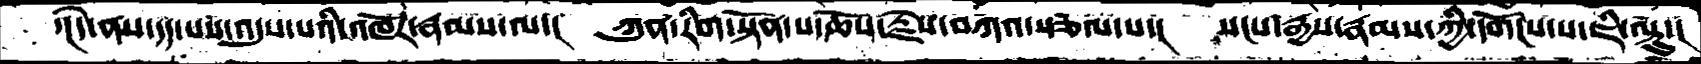་།དེ་ནས་དད་པས་འདུས་པའི་འཁོར་རྣམས་ལ་།  ཀུན་རིག་སྟོན་པ་ཆོས་རྗེས་བཀའ་སྩལ་པ་།  སངས་རྒྱས་རྣམས་ཀྱི་དགོངས་པ་ཇི་ལྟུ་།
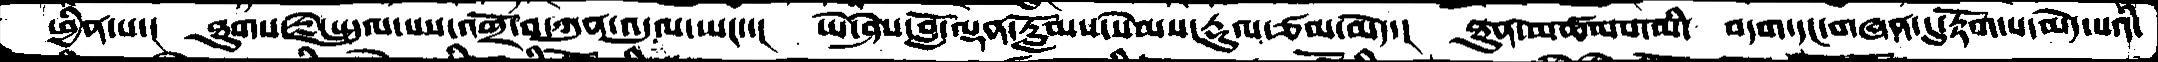ཕྱིན་པ་།  ཐུགས་རྗེ་སྤྲུལ་པས་འགྲོ་བ་ཀུན་འདུལ་ཡང་་།  ཡེ་ཤེས་བློ་ལྡན་རློམས་སེམས་རྡུལ་ཙམ་མེད་།  ཐུན་མཚམས་མི་  བདག་དང་གཞན་དུ་རྟོག་པ་མེད་པའི་
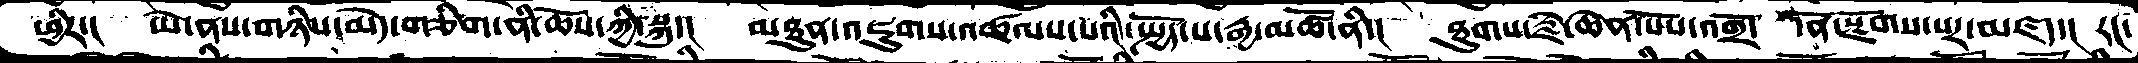ཕྱིར་།  ཡེ་ནས་གཉིས་མེད་གཅིག་ནི་ཆོས་ཀྱི་སྐུ་།  མཐུན་འཇུགས་འཚལས་པའི་སྤྱོད་པ་རྒྱ་མཚོ་ནི་།  ཐུགས་རྗེ་ཆེན་པོས་འགྲོ་ དོན་སྫོགས་པར་མཛད་།  རང་
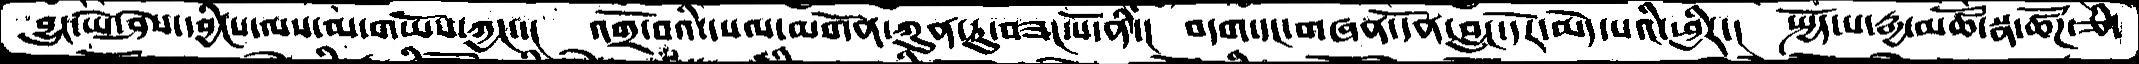བྱུང་ཡེ་ཤེས་དབྱིངས་ལས་མ་གཡོས་ཀྱང་་།  འགྲོ་བའི་དཔལ་མགོན་ཀུན་ཏུ་བཟང་པོ་ནི་།  བདག་དང་གཞན་དོན་བླང་དོར་མེད་པའི་ཕྱིར་།  སྤྱོད་པ་རྒྱ་མཚོ་སྣ་ཚོཌ་ཅི་
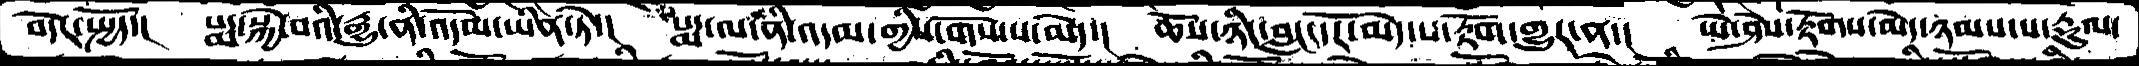བདེར་སྤྱོད་།  པདྨ་སྐྱེ་བའི་རྒྱུ་ནི་འདོམ་ཡིན་ཏེ་།  པདྨ་ལ་ནི་འདམ་གྱིས་གོས་པ་མེད་།  ཆོས་ཉིད་བླང་དོར་མེད་པ་རྟོག་གྱུར་ན་།   ཡེ་ཤེས་རྟོགས་མེད་ཉམས་པ་རྡུལ་
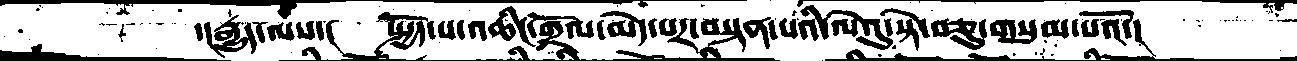་།རྒྱུད་ལས་།   སྤྱོད་པ་འཆིང་གྲོལ་མེད་པར་བསྟན་པའི་ལེའུ་སྟེ་བཅུ་གསུམ་པའོ་།
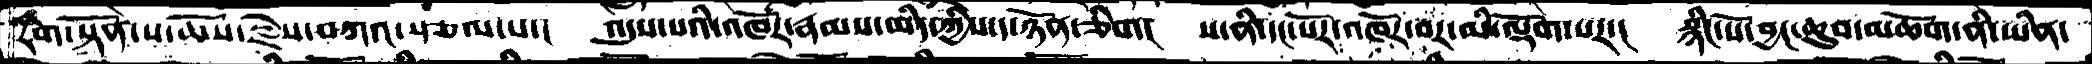རིག་སྟོན་པ་ཆོས་རྗེས་བཀའ་སྩལ་པ་།  འདུས་པའི་འཁོར་རྣམས་ཡིད་ཀྱིས་ད་ཉོན་ཅིག།  ས་ནི་དང་པོར་འཁོར་བར་མི་ལྡོག་པར་།  སྙིང་པོ་བྱང་ཆུབ་མཆོག་ནི་ཡིན་
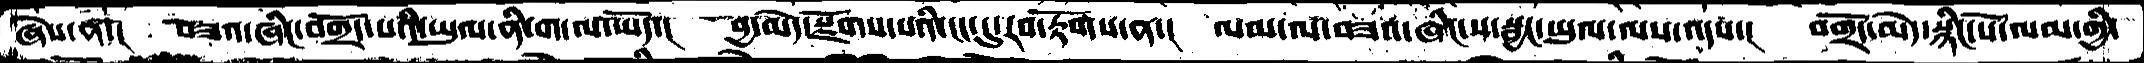ཞེས་ནི་།  བཟའ་ཞིང་འགྲོད་པའི་ཡུལ་ནི་ག་ལ་ཡོད་།  བྱ་མེད་སྫོགས་པའི་ངང་དུ་རབ་རྟོགས་ན་།  ལམ་ལ་བཟའ་ཞིང་ས་སྦྱང་ཡུལ་ལས་འདས་།  བགྲོད་མེད་སྙིང་པོ་ལམ་གྱི་
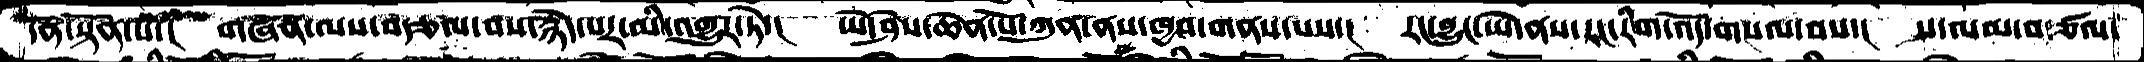དོན་སྟོན་པ་།  གཞན་ལས་བརྩལ་བས་རྙེད་པར་མི་འགྱུར་ཏེ་།  ཡེ་ཤེས་ཆེན་པོ་ཀུན་ནས་ཁྱབ་གནས་པས་།  རང་བྱུང་ཡེ་ནས་རང་རིག་འོད་གསལ་བས་།  ས་ལམ་བརྩལ་
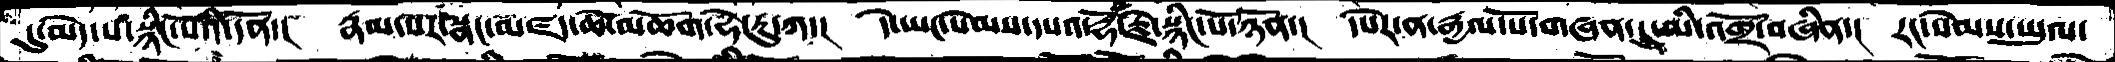དུ་མེད་པ་སྙིང་པོའི་དོན་།  རྣམ་པར་སྣང་མཛད་ཆེ་མཆོག་ཧེ་རུ་ཀ་།  དེ་ཡང་སེམས་དཔའ་རྡོ་རྗེ་སྙིང་པོ་ཉོན་།  དཔེར་ན་རྒྱལ་པོ་གཞན་དུ་མི་འགྲོ་བཞིན་།  རང་སེམས་ཡུལ་
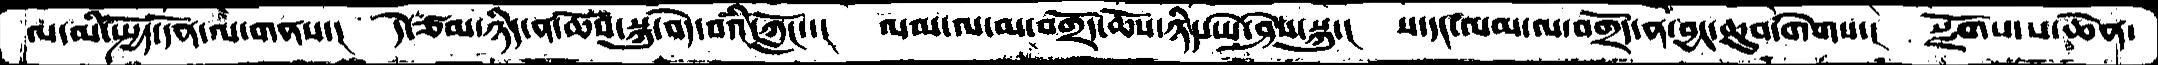ལ་མི་སྤྱོད་དོན་ལ་གནས་།  དེ་ཙམ་ཉིད་ན་ཆོས་སྐུ་བདེ་བའི་ཀློང་་།  ལམ་ལ་མ་བགྲོད་ཆོས་ཉིད་ཡེ་ཤེས་སྐུ་།  ས་དང་ལམ་ལ་བགྲོད་ན་བྱང་ཆུབ་གེགས་།  སྫོགས་པ་ཆེན་
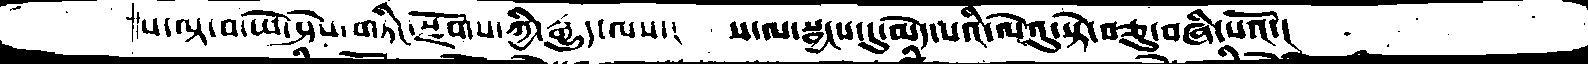ས་ལྟ་བ་ཡེ་ཤེས་གཏིང་སྫོགས་ཀྱི་རྒྱུད་ལས་།  ས་ལ་སྦྱངས་དུ་མེད་པའི་ལེའུ་སྟེ་བཅུ་བཞི་པའོ་།
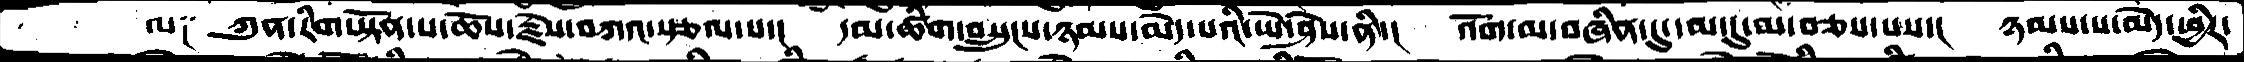ལ༑   ཀུན་རིག་སྟོན་པ་ཆོས་རྗེས་བཀའ་སྩལ་པ་།  དམ་ཚིག་བསྲུངས་ཉམས་མེད་པའི་ཡེ་ཤེས་ནི་།  འོག་མ་བཞིན་དུ་དམ་དུ་མ་བཅས་པས་།  ཉམས་པ་མེད་ཕྱིར་
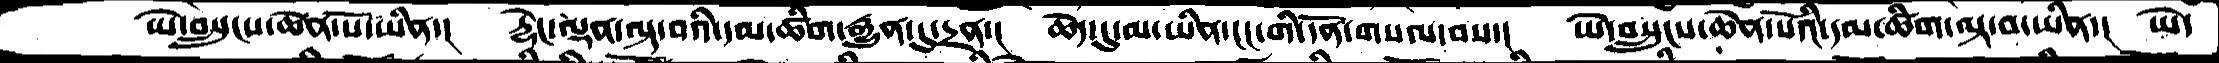ཡེ་བསྲུངས་ཆེན་པོ་ཡིན་།  རྡེང་ལྡན་ལྟ་བའི་དམ་ཚིག་རྒྱུན་དུ་དྲན་།   ཆེད་དུ་མ་ཡིན་ངང་གི་དོན་གསལ་བས་།  ཡེ་བསྲུངས་ཆེན་པོའི་དམ་ཚིག་ལྟ་བ་ཡིན་།  ཡེ་
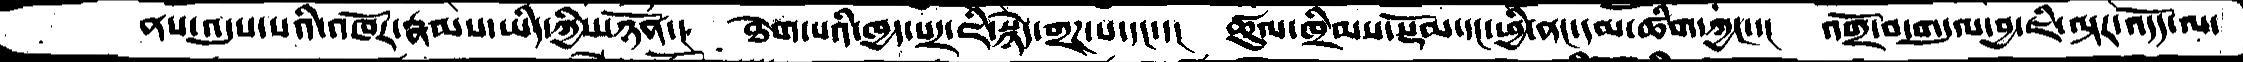ནས་འདུས་པའི་འཁོར་རྣམས་ཡིད་ཀྱིས་ཉོན་།   ཐེག་པའི་ཁྱད་པར་ཇི་སྙེད་གྲཌ་པ་དང་་།  ཚུལ་ཁྲིམས་སྡོམ་དང་ཕྱི་ནང་དམ་ཚིག་ཀྱང་་།  འགྲོ་བ་གདུལ་བྱ་ཇི་ལྟར་འདོད་ལ་
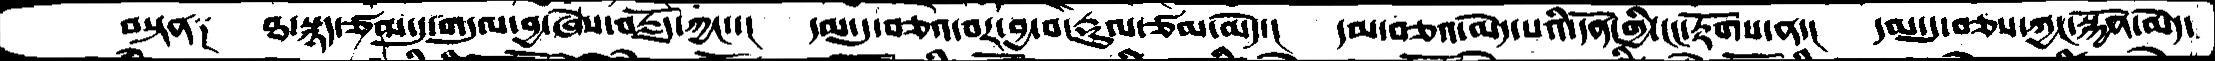བསྟན༑  ཐ་སྙད་ཙམ་དུ་གདུལ་བྱ་ཞེས་བརྗོད་ཀྱང་་།   དམ་དུ་བཅའ་བར་བྱ་བ་རྡུལ་ཙམ་མེད་།  དམ་བཅའ་མེད་པའི་དོན་གྱི་ངང་རྟོགས་ན་།  དམ་དུ་བཅས་ཀྱང་སྐྱོན་མེད་
